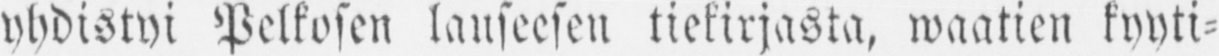yhdistyi Pelkosen lauseesen tiekirjasta, waatien kyyti-
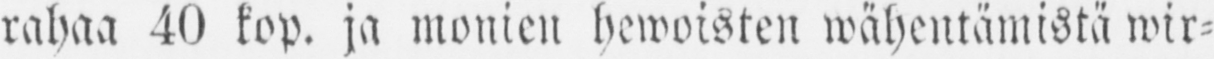rahaa 40 kop. ja monien hewoisten wähentämistä wir-
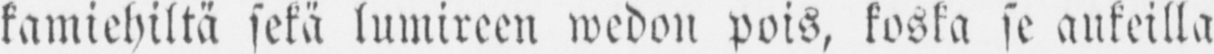kamiehiltä sekä lumireen wedon pois, koska se aukeilla
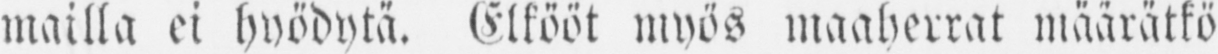mailla ei hyödytä. Elkööt myös maaherrat määrätkö
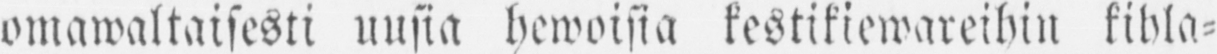omawaltaisesti uusia hewoisia kestikiewareihin kihla-
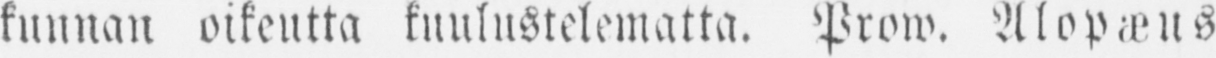kunnan oikeutta kuulustelematta. Prow. Alopæus
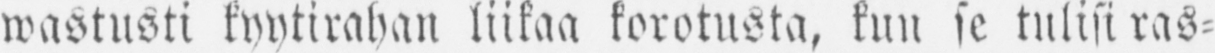wastusti kyytirahan liikaa korotusta, kun se tulisi ras-
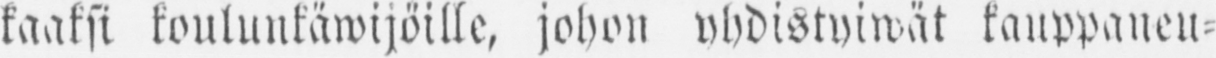kaaksi koulunkäwijöille, johon yhdistyiwät kauppaneu-
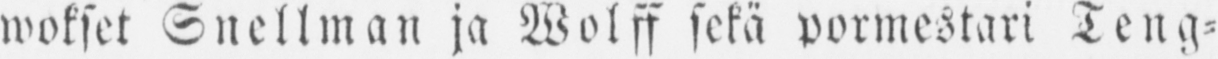wokset Snellman ja Wolff sekä pormestari Teng-
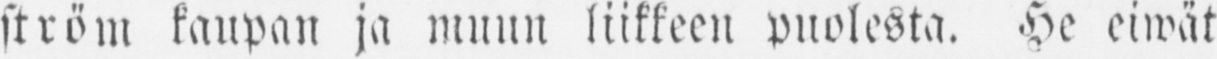ström kaupan ja muun liikkeen puolesta. He eiwät
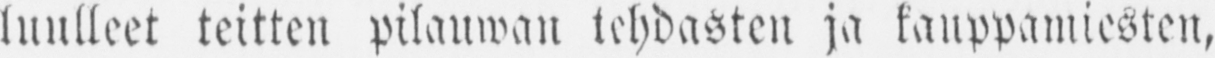luulleet teitten pilauwan tehdasten ja kauppamiesten,
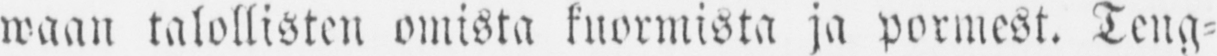waan talollisten omista kuormista ja pormest. Teng-
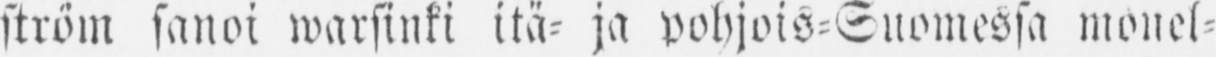ström sanoi warsinki itä- ja pohjois-Suomessa monel-
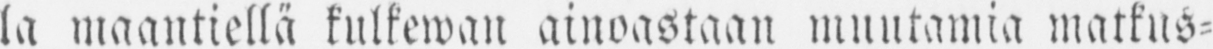la maantiellä kulkewan ainoastaan muutamia matkus-
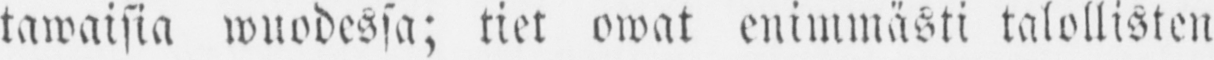tawaisia wuodessa; tiet owat enimmästi talollisten
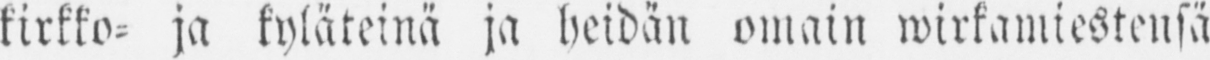kirkko- ja kyläteinä ja heidän omain wirkamiestensä
